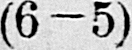(6-5)
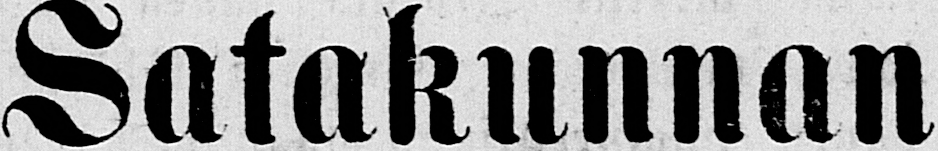Satakunnan
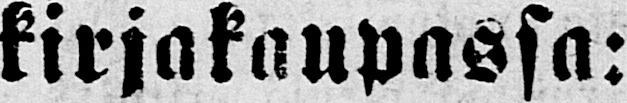kirjakaupassa:
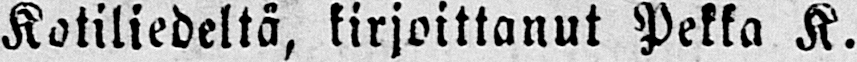Kotiliedeltä, kirjoittanut Pekka K.
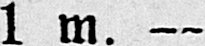1 m. —
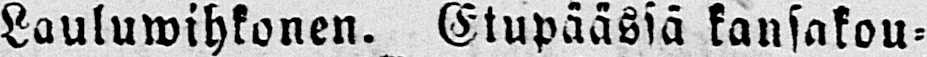Lauluwihkonen. Etupäässä kansakou-
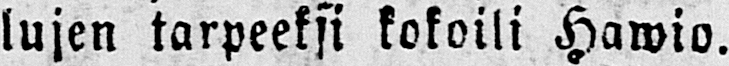lujen tarpeeksi kokoili Hawio.
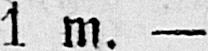1 m. —
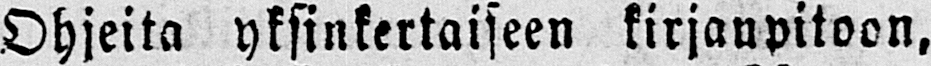Ohjeita yksinkertaiseen kirjanpitoon,
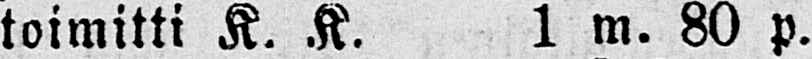toimitti K. K. 1 m. 80 p.
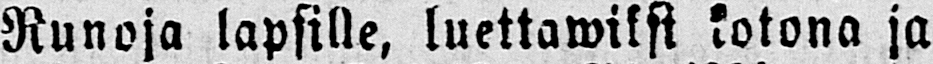Runoja lapsille, luettawiksi kotona ja
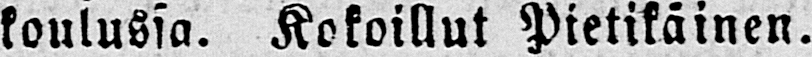koulussa. Kokoillut Pietikäinen.
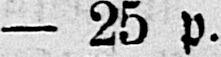- 25 p.
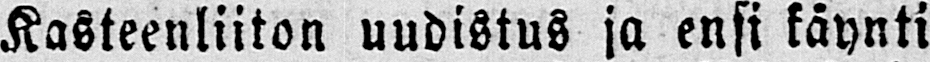Kasteenliiton uudistus ja ensi käynti
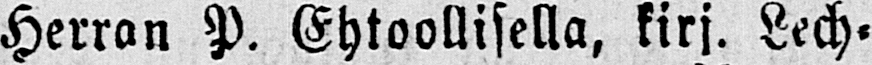Herran P. Ehtoollisella, kirj. Lech-
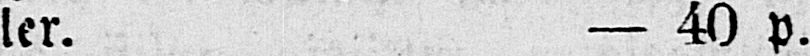ler. — 40 p.
